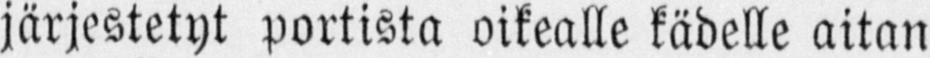järjestetyt portista oikealle kädelle aitan
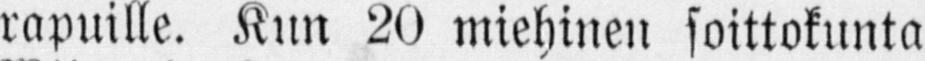rapuille. Kun 20 miehinen soittokunta
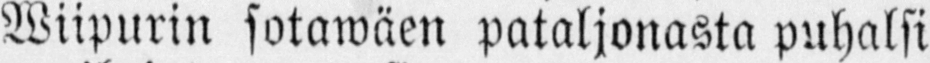Wiipurin sotawäen pataljonasta puhalsi
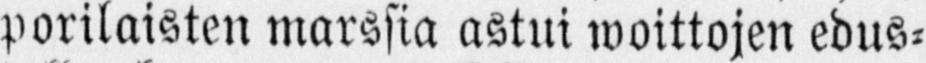porilaisten marssia astui woittojen edus-
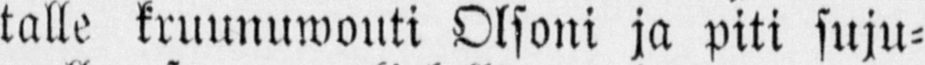talle kruunuwouti Olsoni ja piti suju-
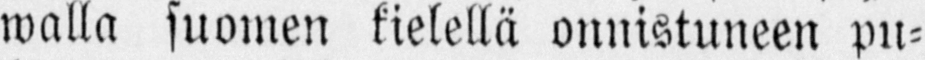walla suomen kielellä onnistuneen pu-
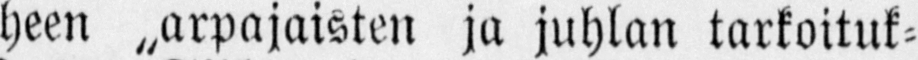heen ja juhlan tarkoituk-
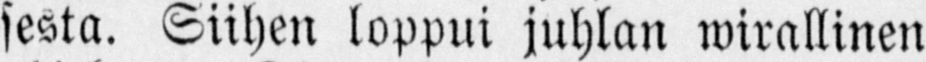sesta. Siihen loppui juhlan wirallinen
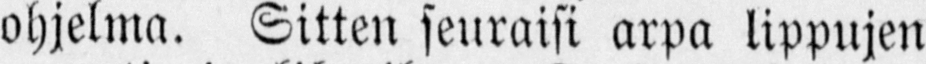ohjelma. Sitten seuraisi arpa lippujen
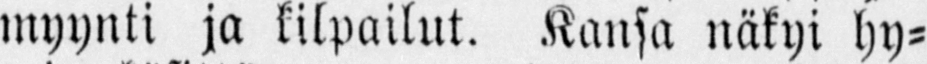myynti ja kilpailut. Kansa näkyi hy-
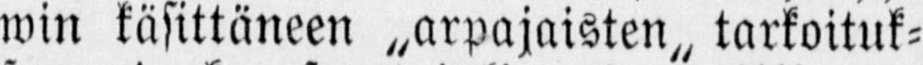win käsittäneen „arpajaisten tarkoituk-
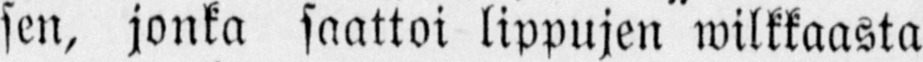sen, jonka saattoi lippujen wilkkaasta
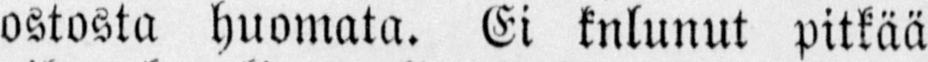ostosta huomata. Ei kulunut pitkää
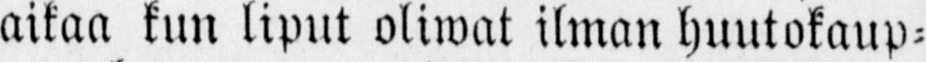aikaa kun liput oliwat ilman huutokaup-
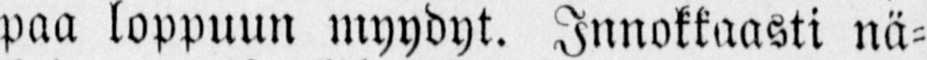paa loppuun myydyt. Innokkaasti nä-
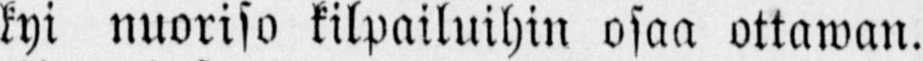kyi nuoriso kilpailuihin osaa ottawan.
